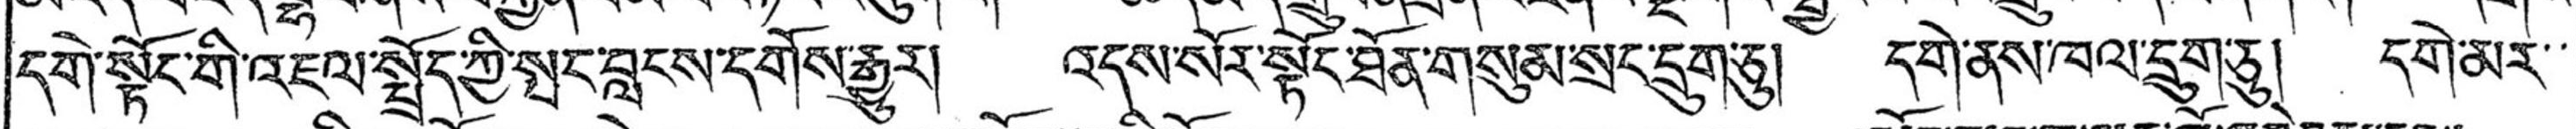དགེ་སྟོང་གི་འཇལ་སྤྲོད་ཀྱི་སྤང་བླངས་དགོས་རྒྱུར། འདས་སོར་སྟོང་ཐོན་གསུམ་སྲང་དྲུག་ཅུ། དགེ་ནས་ཁལ་དྲུག་ཅུ། དགེ་མར་་
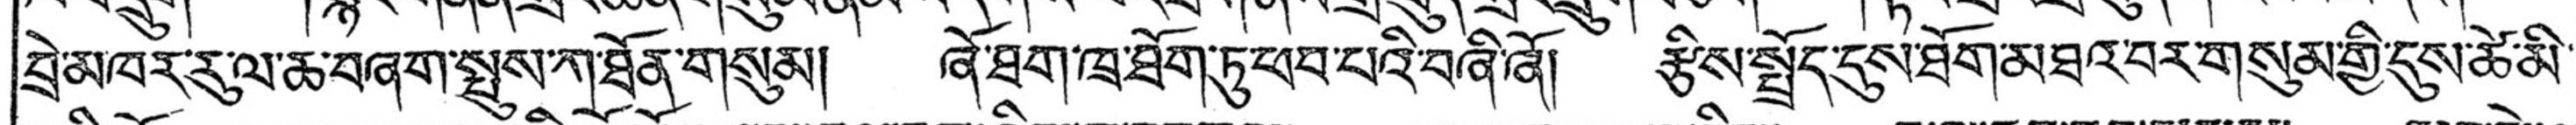བྲེ་མཁར་རུ་ལ་ཆ་བཞག་སྤུས་ཀ་ཐོན་གསུམ། ཞོ་ཐག་ཁྲ་ཐོག་ཏུ་ཕབ་པའི་བཞི་ཞོ། རྩིས་སྤྲོད་དུས་ཐོག་མཐའ་བར་གསུམ་གྱི་དུས་ཚེ་མི་
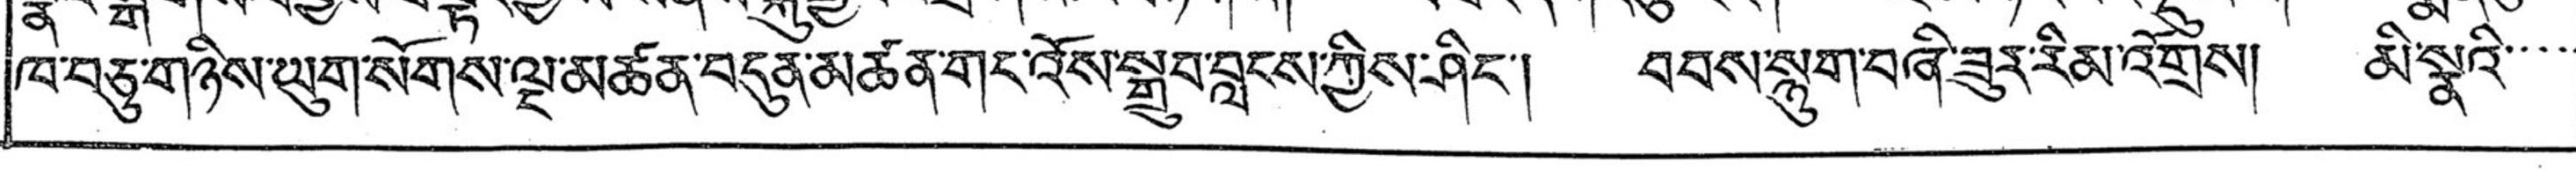ཁ་བཅུ་གཉིས་ཡུག་སོགས་ལྔ་མཚན་བདུན་མཚན་གང་འོས་སྒྲུབ་བླངས་ཀྱིས་ཤིང་། བབས་སྙུག་བཞི་ཟུར་རིམ་འགྲོས། མི་སྣའི་་་་་
